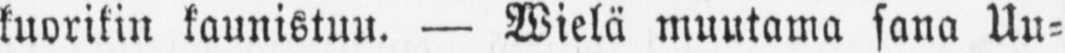kuorikin kaunistuu. — Wielä muutama sana Uu-
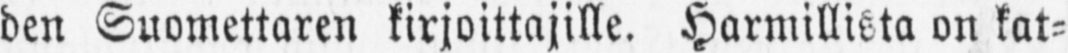den Suomettaren kirjoittajille. Harmillista on kat-
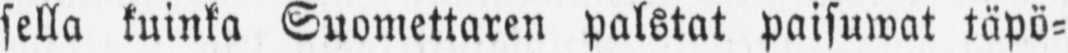sella kuinka Suomettaren palstat paisuwat täpö-
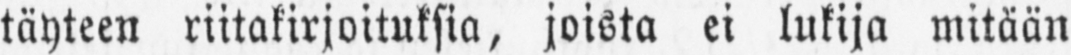täyteen riitakirjoituksia, joista ei lukija mitään
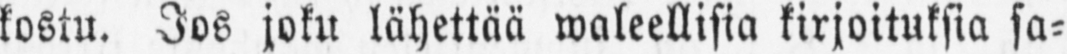kostu. Jos joku lähettää waleellisia kirjoituksia sa-
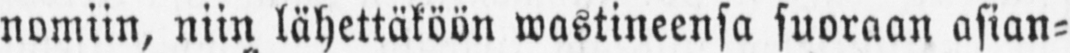nomiin, niin lähettäköön wastineensa suoraan asian-
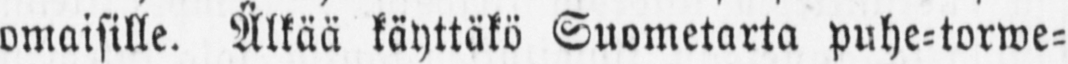omaisille. Älkää käyttäkö Suometarta puhe-torwe-
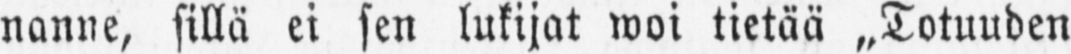nanne, sillä ei sen lukijat woi tietää „Totuuden
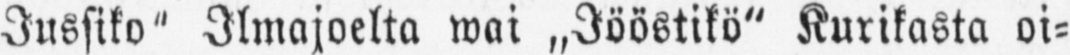Jussiko" Ilmajoelta wai „Jööstikö" Kurikasta oi-
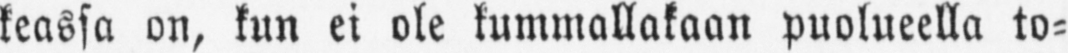keassa on, kun ei ole kummallakaan puolueella to-
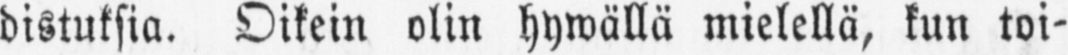distuksia. Oikein olin hywällä mielellä, kun toi-
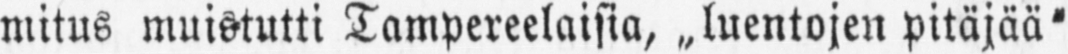mitus muistutti Tampereelaisia, „luentojen pitäjää"
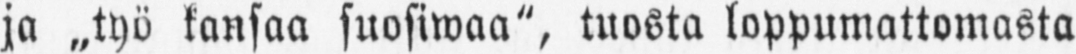ja „työ kansaa suosiwaa", tuosta loppumattomasta
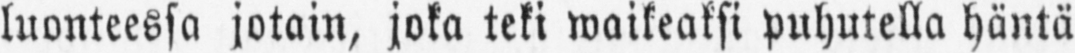luonteessa jotain, joka teki waikeaksi puhutella häntä
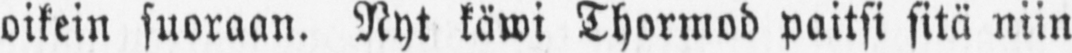oikein suoraan. Nyt käwi Thormod paitsi sitä niin
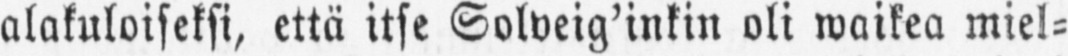alakuloiseksi, että itse Solveig'inkin oli waikea miel-
